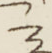༣
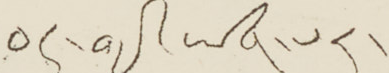བར་གྱི་ཡིན་པར་
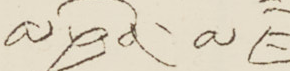མཁྱེན་མཛོད།
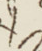༡
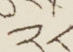༢༨
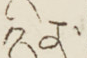ཉིན་
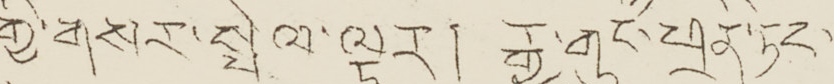གྱི་གསར་སྤེལ་ལྟར། རྒྱ་གུང་ཕྲན་ཏང་
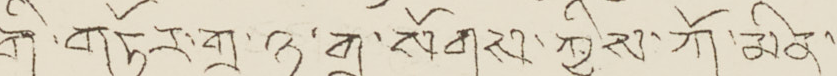གི་གཏོར་གྲུ་ཉ་གྲུ་སོགས་ཀྱིས་ཀོ་མིན་
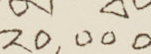༢༠,༠༠༠
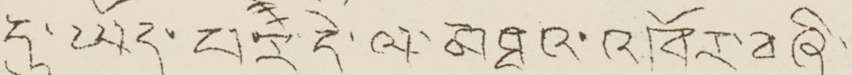དུ་ཡོད་པར་དེ་ལ་མཐའ་འཁོར་བཞི་
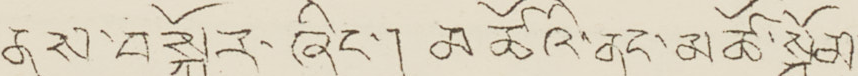ནས་བསྐོར་ཞིང་།མཚོའི་ནང་མཚོ་སྦོམ་
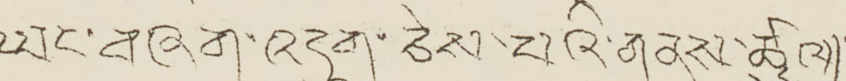ཡང་བཞག་འདུག་ཅེས་པའི་གནས་ཚུལ།།
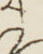༡
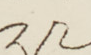༢༩
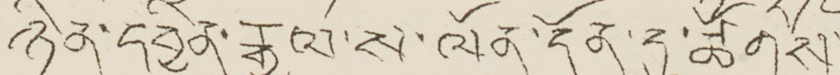ཉིན་དབྱིན་རྒྱལ་ས་ལོན་དོན་དུ་ཚོགས་
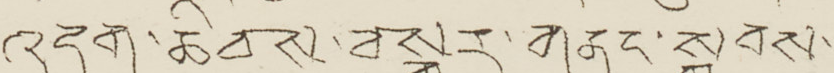འདུག་ཆིབས་བསྒྱུར་གནང་སྐབས་
